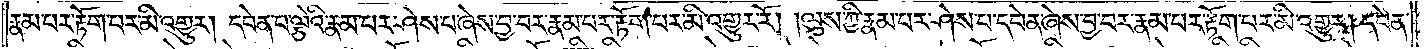རྣམ་པར་རྟོག་པར་མི་འགྱུར། དབེན་པ་ལྕེའི་རྣམ་པར་ཤེས་པ་ཞེས་བྱ་བར་རྣམ་པར་རྟོག་པར་མི་འགྱུར་རོ། །ལུས་ཀྱི་རྣམ་པར་ཤེས་པ་དབེན་ཞེས་བྱ་བར་རྣམ་པར་རྟོག་པར་མི་འགྱུར། དབེན་
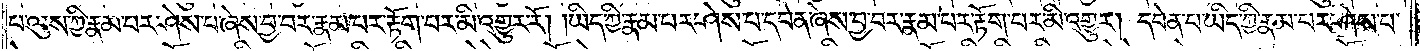པ་ལུས་ཀྱི་རྣམ་པར་ཤེས་པ་ཞེས་བྱ་བར་རྣམ་པར་རྟོག་པར་མི་འགྱུར་རོ། །ཡིད་ཀྱི་རྣམ་པར་ཤེས་པ་དབེན་ཞེས་བྱ་བར་རྣམ་པར་རྟོག་པར་མི་འགྱུར། དབེན་པ་ཡིད་ཀྱི་རྣམ་པར་ཤེས་པ་
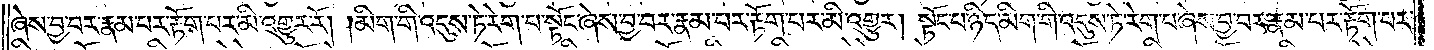ཞེས་བྱ་བར་རྣམ་པར་རྟོག་པར་མི་འགྱུར་རོ། །མིག་གི་འདུས་ཏེ་རེག་པ་སྟོང་ཞེས་བྱ་བར་རྣམ་པར་རྟོག་པར་མི་འགྱུར། སྟོང་པ་ཉིད་མིག་གི་འདུས་ཏེ་རེག་པ་ཞེས་བྱ་བར་རྣམ་པར་རྟོག་པར་
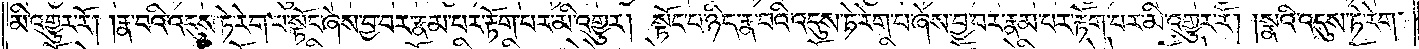མི་འགྱུར་རོ། །རྣ་བའི་འདུས་ཏེ་རེག་པ་སྟོང་ཞེས་བྱ་བར་རྣམ་པར་རྟོག་པར་མི་འགྱུར། སྟོང་པ་ཉིད་རྣ་བའི་འདུས་ཏེ་རེག་པ་ཞེས་བྱ་བར་རྣམ་པར་རྟོག་པར་མི་འགྱུར་རོ། །སྣའི་འདུས་ཏེ་རེག་
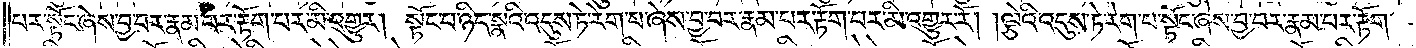པ་སྟོང་ཞེས་བྱ་བར་རྣམ་པར་རྟོག་པར་མི་འགྱུར། སྟོང་པ་ཉིད་སྣའི་འདུས་ཏེ་རེག་པ་ཞེས་བྱ་བར་རྣམ་པར་རྟོག་པར་མི་འགྱུར་རོ། །ལྕེའི་འདུས་ཏེ་རེག་པ་སྟོང་ཞེས་བྱ་བར་རྣམ་པར་རྟོག་
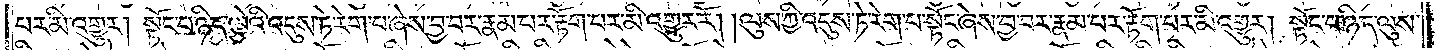པར་མི་འགྱུར། སྟོང་པ་ཉིད་ལྕེའི་འདུས་ཏེ་རེག་པ་ཞེས་བྱ་བར་རྣམ་པར་རྟོག་པར་མི་འགྱུར་རོ། །ལུས་ཀྱི་འདུས་ཏེ་རེག་པ་སྟོང་ཞེས་བྱ་བར་རྣམ་པར་རྟོག་པར་མི་འགྱུར། སྟོང་པ་ཉིད་ལུས་
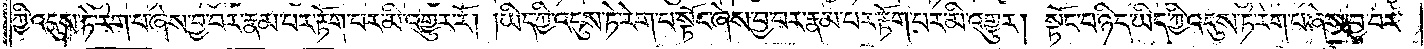ཀྱི་འདུས་ཏེ་རེག་པ་ཞེས་བྱ་བར་རྣམ་པར་རྟོག་པར་མི་འགྱུར་རོ། །ཡིད་ཀྱི་འདུས་ཏེ་རེག་པ་སྟོང་ཞེས་བྱ་བར་རྣམ་པར་རྟོག་པར་མི་འགྱུར། སྟོང་པ་ཉིད་ཡིད་ཀྱི་འདུས་ཏེ་རེག་པ་ཞེས་བྱ་བར་
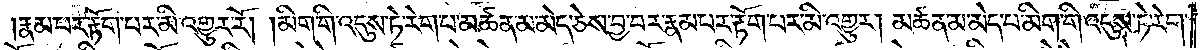རྣམ་པར་རྟོག་པར་མི་འགྱུར་རོ། །མིག་གི་འདུས་ཏེ་རེག་པ་མཚན་མ་མེད་ཅེས་བྱ་བར་རྣམ་པར་རྟོག་པར་མི་འགྱུར། མཚན་མ་མེད་པ་མིག་གི་འདུས་ཏེ་རེག་
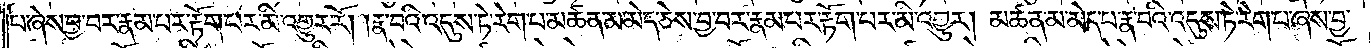པ་ཞེས་བྱ་བར་རྣམ་པར་རྟོག་པར་མི་འགྱུར་རོ། །རྣ་བའི་འདུས་ཏེ་རེག་པ་མཚན་མ་མེད་ཅེས་བྱ་བར་རྣམ་པར་རྟོག་པར་མི་འགྱུར། མཚན་མ་མེད་པ་རྣ་བའི་འདུས་ཏེ་རེག་པ་ཞེས་བྱ་
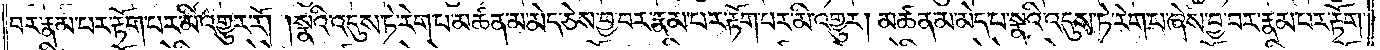བར་རྣམ་པར་རྟོག་པར་མི་འགྱུར་རོ། །སྣའི་འདུས་ཏེ་རེག་པ་མཚན་མ་མེད་ཅེས་བྱ་བར་རྣམ་པར་རྟོག་པར་མི་འགྱུར། མཚན་མ་མེད་པ་སྣའི་འདུས་ཏེ་རེག་པ་ཞེས་བྱ་བར་རྣམ་པར་རྟོག་
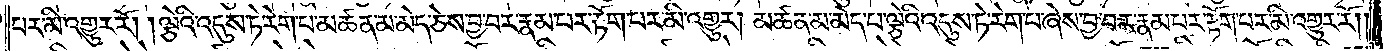པར་མི་འགྱུར་རོ། །ལྕེའི་འདུས་ཏེ་རེག་པ་མཚན་མ་མེད་ཅེས་བྱ་བར་རྣམ་པར་རྟོག་པར་མི་འགྱུར། མཚན་མ་མེད་པ་ལྕེའི་འདུས་ཏེ་རེག་པ་ཞེས་བྱ་བར་རྣམ་པར་རྟོག་པར་མི་འགྱུར་རོ། །
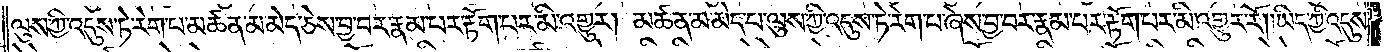ལུས་ཀྱི་འདུས་ཏེ་རེག་པ་མཚན་མ་མེད་ཅེས་བྱ་བར་རྣམ་པར་རྟོག་པར་མི་འགྱུར། མཚན་མ་མེད་པ་ལུས་ཀྱི་འདུས་ཏེ་རེག་པ་ཞེས་བྱ་བར་རྣམ་པར་རྟོག་པར་མི་འགྱུར་རོ། །ཡིད་ཀྱི་འདུས་
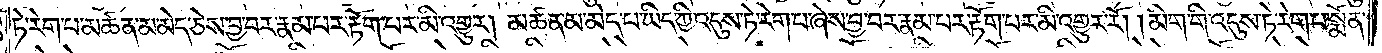ཏེ་རེག་པ་མཚན་མ་མེད་ཅེས་བྱ་བར་རྣམ་པར་རྟོག་པར་མི་འགྱུར། མཚན་མ་མེད་པ་ཡིད་ཀྱི་འདུས་ཏེ་རེག་པ་ཞེས་བྱ་བར་རྣམ་པར་རྟོག་པར་མི་འགྱུར་རོ། །མིག་གི་འདུས་ཏེ་རེག་པ་སྨོན་
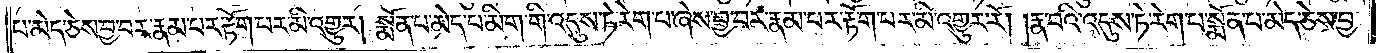པ་མེད་ཅེས་བྱ་བར་རྣམ་པར་རྟོག་པར་མི་འགྱུར། སྨོན་པ་མེད་པ་མིག་གི་འདུས་ཏེ་རེག་པ་ཞེས་བྱ་བར་རྣམ་པར་རྟོག་པར་མི་འགྱུར་རོ། །རྣ་བའི་འདུས་ཏེ་རེག་པ་སྨོན་པ་མེད་ཅེས་བྱ་
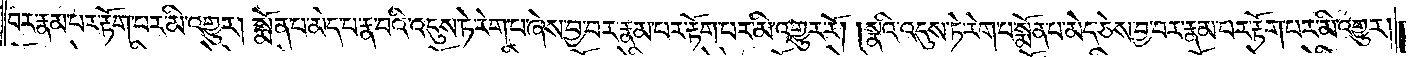བར་རྣམ་པར་རྟོག་པར་མི་འགྱུར། སྨོན་པ་མེད་པ་རྣ་བའི་འདུས་ཏེ་རེག་པ་ཞེས་བྱ་བར་རྣམ་པར་རྟོག་པར་མི་འགྱུར་རོ། །སྣའི་འདུས་ཏེ་རེག་པ་སྨོན་པ་མེད་ཅེས་བྱ་བར་རྣམ་པར་རྟོག་པར་མི་འགྱུར།
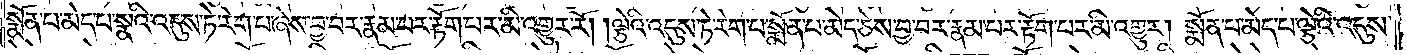སྨོན་པ་མེད་པ་སྣའི་འདུས་ཏེ་རེག་པ་ཞེས་བྱ་བར་རྣམ་པར་རྟོག་པར་མི་འགྱུར་རོ། །ལྕེའི་འདུས་ཏེ་རེག་པ་སྨོན་པ་མེད་ཅེས་བྱ་བར་རྣམ་པར་རྟོག་པར་མི་འགྱུར། སྨོན་པ་མེད་པ་ལྕེའི་འདུས་
